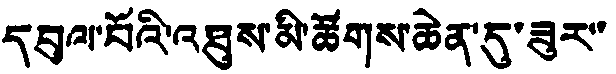དབུལ་བོའི་འཐུས་མ་ཚོགས་ཆེན་དུ་ཟུར་་
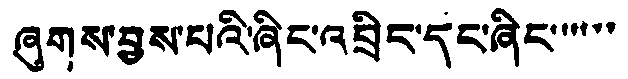ཞུགས་བྱས་པའི་ཞིང་འབྲིང་དང་ཞིང་་་་་་
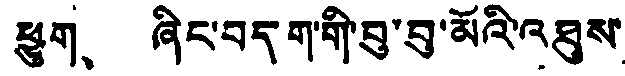ཕྱུག、 ཞིང་བདག་གི་བུ་བུ་མོའི་འཐུས་
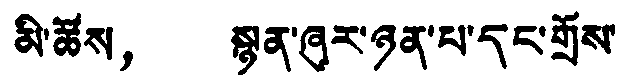མི་ཚོས， སྙན་ཞུར་ཉན་པ་དང་གྲོས་
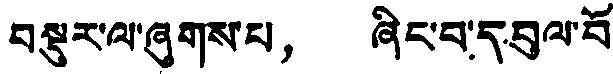བསྡུར་ལ་ཞུགས་པ， ཞིང་བ་དབུལ་བོ་
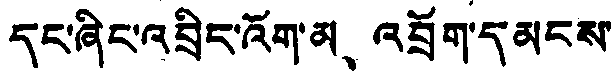དང་ཞིང་འབྲིང་འོག་མ、 འབྲོག་དམངས་
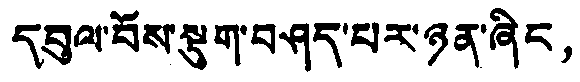དབུལ་བོས་སྡུག་བཤད་པར་ཉན་ཞིང，
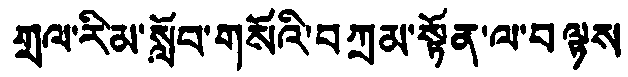གྲལ་རིམ་སློབ་གསོའི་བཀྲམ་སྟོན་ལ་བལྟས
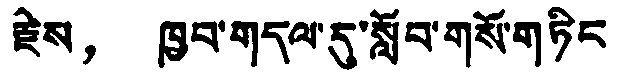རྗེས， ཁྱབ་གདལ་དུ་སློབ་གསོ་གཏིང
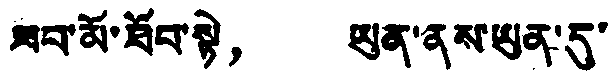ཟབ་མོ་ཐོབ་སྟེ， ཡུན་ནས་ཡུན་དུ་
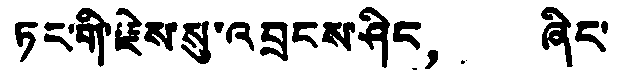ཏང་གི་རྗེསསུ་འབྲངས་ཤིང， ཞིང་
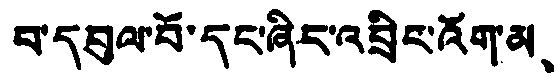བ་དབུལ་བོ་དང་ཞིང་འབྲིང་འོག་མ、
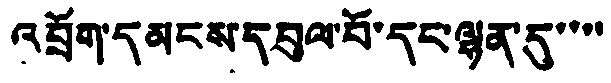འབྲོག་དམངས་དབུལ་བོ་དང་ལྷན་དུ་་་་
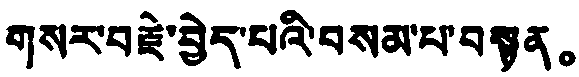གསར་བརྗེ་བྱེད་པའི་བསམ་པ་བསྟན。
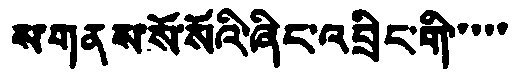ས་གནས་སོ་སོའི་ཞིང་འབྲིང་གི་་་་་
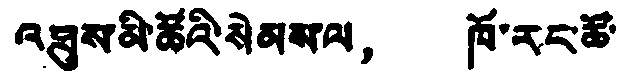འཐུས་མི་ཚོའི་སེམས་ལ， ཁོ་རང་ཚོ་
